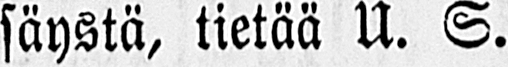säystä, tietää U. S.
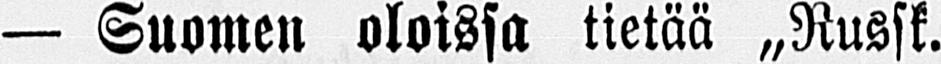— Suomen oloissa tietää „Russk.
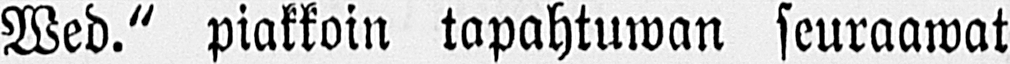Web." piakkoin tapahtuwan seuraawat
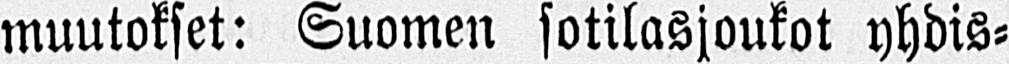muutokset: Suomen sotilasjoukot yhdis-
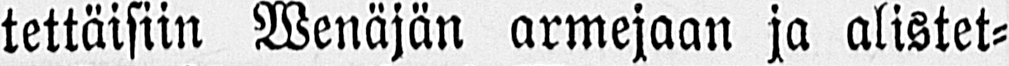tettäisiin Wenäjän armejaan ja alistet-
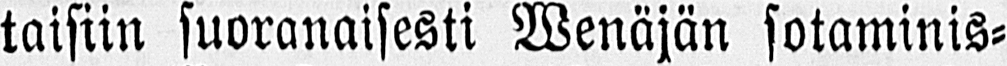taisiin suoranaisesti Wenäjän sotaminis-
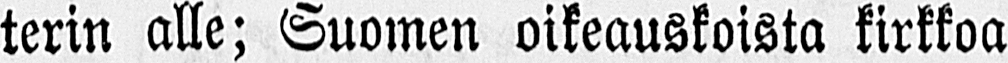terin alle; Suomen oikeauskoista kirkkoa
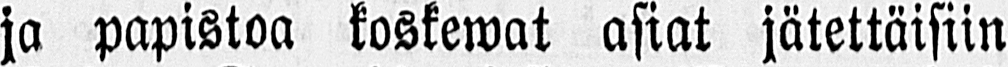ja papistoa koskewat asiat jätettäisiin
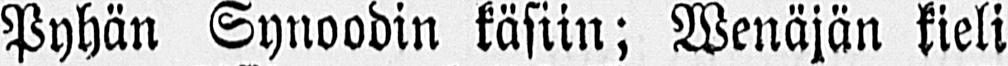Pyhän Synoodin käsiin; Wenäjän kieli
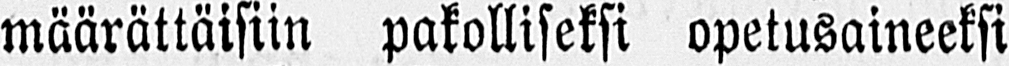määrättäisiin pakolliseksi opetusaineeksi
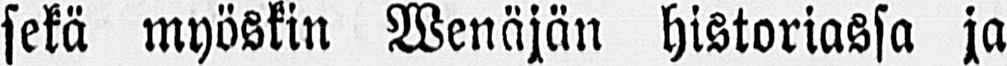sekä myöskin Wenäjän historiassa ja
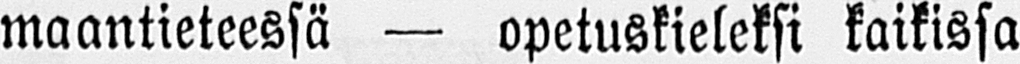maantieteessä — opetuskieleksi kaikissa
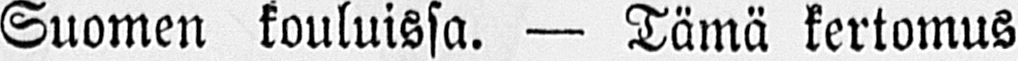Suomen kouluissa. — Tämä kertomus
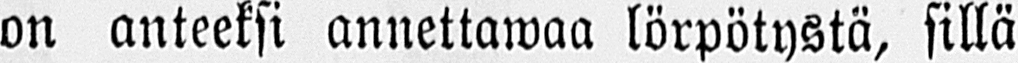on anteeksi annettawaa lörpötystä, sillä
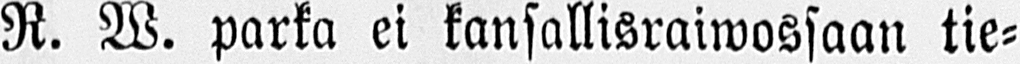R. W. parka ei kansallisraiwossaan tie-
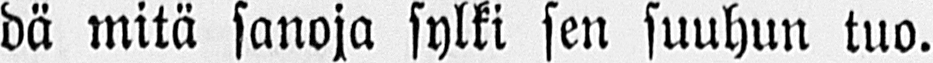dä mitä sanoja sylki sen suuhun tuo.
